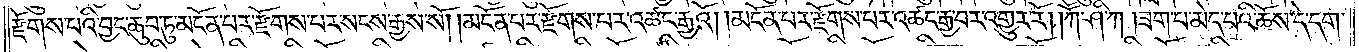རྫོགས་པའི་བྱང་ཆུབ་ཏུ་མངོན་པར་རྫོགས་པར་སངས་རྒྱས་སོ། །མངོན་པར་རྫོགས་པར་འཚང་རྒྱའོ། །མངོན་པར་རྫོགས་པར་འཚང་རྒྱ་བར་འགྱུར་རོ། །ཀཽ་ཤི་ཀ །ཟག་པ་མེད་པའི་ཆོས་དེ་དག་
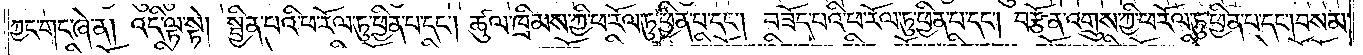ཀྱང་གང་ཞེ་ན། འདི་ལྟ་སྟེ། སྦྱིན་པའི་ཕ་རོལ་ཏུ་ཕྱིན་པ་དང༌། ཚུལ་ཁྲིམས་ཀྱི་ཕ་རོལ་ཏུ་ཕྱིན་པ་དང༌། བཟོད་པའི་ཕ་རོལ་ཏུ་ཕྱིན་པ་དང༌། བརྩོན་འགྲུས་ཀྱི་ཕ་རོལ་ཏུ་ཕྱིན་པ་དང༌། བསམ་
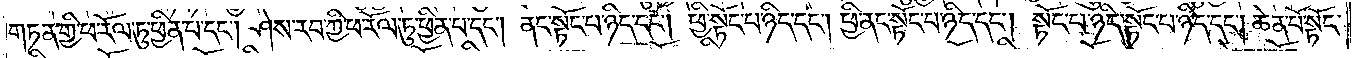གཏན་གྱི་ཕ་རོལ་ཏུ་ཕྱིན་པ་དང༌། ཤེས་རབ་ཀྱི་ཕ་རོལ་ཏུ་ཕྱིན་པ་དང༌། ནང་སྟོང་པ་ཉིད་དང༌། ཕྱི་སྟོང་པ་ཉིད་དང༌། ཕྱི་ནང་སྟོང་པ་ཉིད་དང༌། སྟོང་པ་ཉིད་སྟོང་པ་ཉིད་དང༌། ཆེན་པོ་སྟོང་
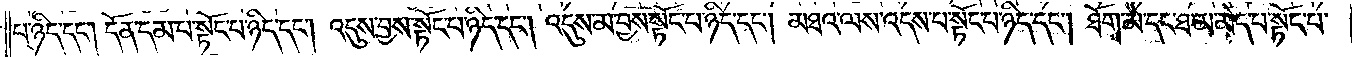པ་ཉིད་དང༌། དོན་དམ་པ་སྟོང་པ་ཉིད་དང༌། འདུས་བྱས་སྟོང་པ་ཉིད་དང༌། འདུས་མ་བྱས་སྟོང་པ་ཉིད་དང༌། མཐའ་ལས་འདས་པ་སྟོང་པ་ཉིད་དང༌། ཐོག་མ་དང་ཐ་མ་མེད་པ་སྟོང་པ་
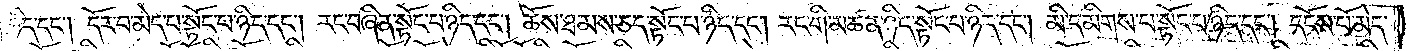ཉིད་དང༌། དོར་བ་མེད་པ་སྟོང་པ་ཉིད་དང༌། རང་བཞིན་སྟོང་པ་ཉིད་དང༌། ཆོས་ཐམས་ཅད་སྟོང་པ་ཉིད་དང༌། རང་གི་མཚན་ཉིད་སྟོང་པ་ཉིད་དང༌། མི་དམིགས་པ་སྟོང་པ་ཉིད་དང༌། དངོས་པོ་མེད་
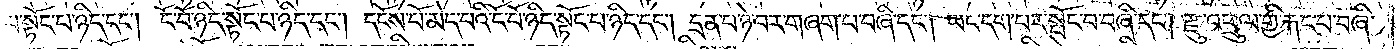པ་སྟོང་པ་ཉིད་དང༌། ངོ་བོ་ཉིད་སྟོང་པ་ཉིད་དང༌། དངོས་པོ་མེད་པའི་ངོ་བོ་ཉིད་སྟོང་པ་ཉིད་དང༌། དྲན་པ་ཉེ་བར་གཞག་པ་བཞི་དང༌། ཡང་དག་པར་སྤོང་བ་བཞི་དང༌། རྫུ་འཕྲུལ་གྱི་རྐང་པ་བཞི་
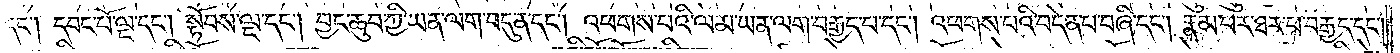དང༌། དབང་པོ་ལྔ་དང༌། སྟོབས་ལྔ་དང༌། བྱང་ཆུབ་ཀྱི་ཡན་ལག་བདུན་དང༌། འཕགས་པའི་ལམ་ཡན་ལག་བརྒྱད་པ་དང༌། འཕགས་པའི་བདེན་པ་བཞི་དང༌། རྣམ་པར་ཐར་པ་བརྒྱད་དང༌།
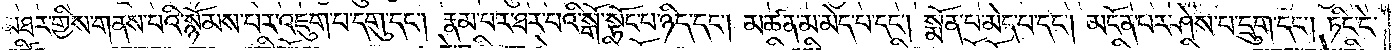མཐར་གྱིས་གནས་པའི་སྙོམས་པར་འཇུག་པ་དགུ་དང༌། རྣམ་པར་ཐར་པའི་སྒོ་སྟོང་པ་ཉིད་དང༌། མཚན་མ་མེད་པ་དང༌། སྨོན་པ་མེད་པ་དང༌། མངོན་པར་ཤེས་པ་དྲུག་དང༌། ཏིང་ངེ་
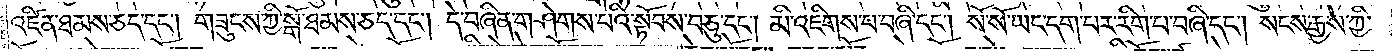འཛིན་ཐམས་ཅད་དང༌། གཟུངས་ཀྱི་སྒོ་ཐམས་ཅད་དང༌། དེ་བཞིན་གཤེགས་པའི་སྟོབས་བཅུ་དང༌། མི་འཇིགས་པ་བཞི་དང༌། སོ་སོ་ཡང་དག་པར་རིག་པ་བཞི་དང༌། སངས་རྒྱས་ཀྱི་
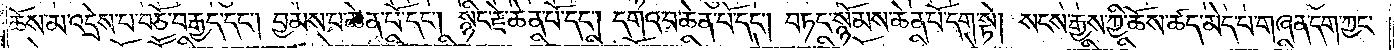ཆོས་མ་འདྲེས་པ་བཅོ་བརྒྱད་དང༌། བྱམས་པ་ཆེན་པོ་དང༌། སྙིང་རྗེ་ཆེན་པོ་དང༌། དགའ་བ་ཆེན་པོ་དང༌། བཏང་སྙོམས་ཆེན་པོ་དག་སྟེ། སངས་རྒྱས་ཀྱི་ཆོས་ཚད་མེད་པ་གཞན་དག་ཀྱང་
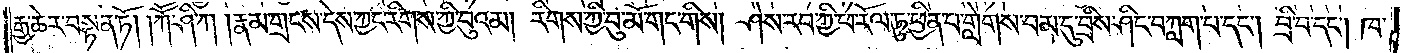རྒྱ་ཆེར་བསྟན་ཏོ། །ཀཽ་ཤི་ཀ །རྣམ་གྲངས་དེས་ཀྱང་རིགས་ཀྱི་བུའམ། རིགས་ཀྱི་བུ་མོ་གང་གིས། ཤེས་རབ་ཀྱི་ཕ་རོལ་ཏུ་ཕྱིན་པ་གླེགས་བམ་དུ་བྲིས་ཤིང་བཀླག་པ་དང༌། བྲི་བ་དང༌། ཁ་
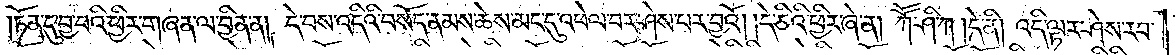ཏོན་དུ་བྱ་བའི་ཕྱིར་གཞན་ལ་བྱིན་ན། དེ་བས་འདིའི་བསོད་ནམས་ཆེས་མང་དུ་འཕེལ་བར་ཤེས་བར་བྱའོ། །དེ་ཅིའི་ཕྱིར་ཞེ་ན། ཀཽ་ཤི་ཀ །དེ་ནི། འདི་ལྟར་ཤེས་རབ་
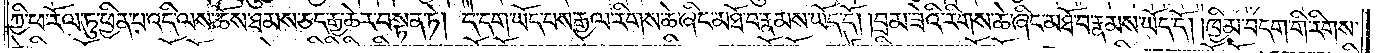ཀྱི་ཕ་རོལ་ཏུ་ཕྱིན་པ་འདི་ལས་ཆོས་ཐམས་ཅད་རྒྱ་ཆེར་བསྟན་ཏེ། དེ་དག་ཡོད་པས་རྒྱལ་རིགས་ཆེ་ཞིང་མཐོ་བ་རྣམས་ཡོད་དོ། །བྲམ་ཟེའི་རིགས་ཆེ་ཞིང་མཐོ་བ་རྣམས་ཡོད་དོ། །ཁྱིམ་བདག་གི་རིགས་
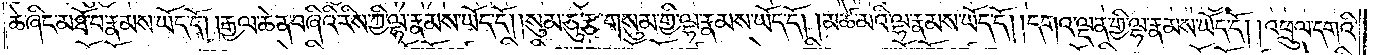ཆེ་ཞིང་མཐོ་བ་རྣམས་ཡོད་དོ། །རྒྱལ་ཆེན་བཞིའི་རིས་ཀྱི་ལྷ་རྣམས་ཡོད་དོ། །སུམ་ཅུ་རྩ་གསུམ་གྱི་ལྷ་རྣམས་ཡོད་དོ། །མཚེ་མའི་ལྷ་རྣམས་ཡོད་དོ། །དགའ་ལྡན་གྱི་ལྷ་རྣམས་ཡོད་དོ། །འཕྲུལ་དགའི་
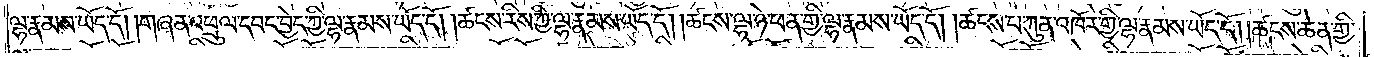ལྷ་རྣམས་ཡོད་དོ། །གཞན་འཕྲུལ་དབང་བྱེད་ཀྱི་ལྷ་རྣམས་ཡོད་དོ། །ཚངས་རིས་ཀྱི་ལྷ་རྣམས་ཡོད་དོ། །ཚངས་ལྷ་ཉེ་ཕན་གྱི་ལྷ་རྣམས་ཡོད་དོ། །ཚངས་པ་ཀུན་འཁོར་གྱི་ལྷ་རྣམས་ཡོད་དོ། །ཚངས་ཆེན་གྱི་
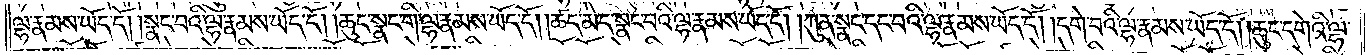ལྷ་རྣམས་ཡོད་དོ། །སྣང་བའི་ལྷ་རྣམས་ཡོད་དོ། །ཆུང་སྣང་གི་ལྷ་རྣམས་ཡོད་དོ། །ཚད་མེད་སྣང་བའི་ལྷ་རྣམས་ཡོད་དོ། །ཀུན་སྣང་དང་བའི་ལྷ་རྣམས་ཡོད་དོ། །དགེ་བའི་ལྷ་རྣམས་ཡོད་དོ། །ཆུང་དགེའི་ལྷ་
